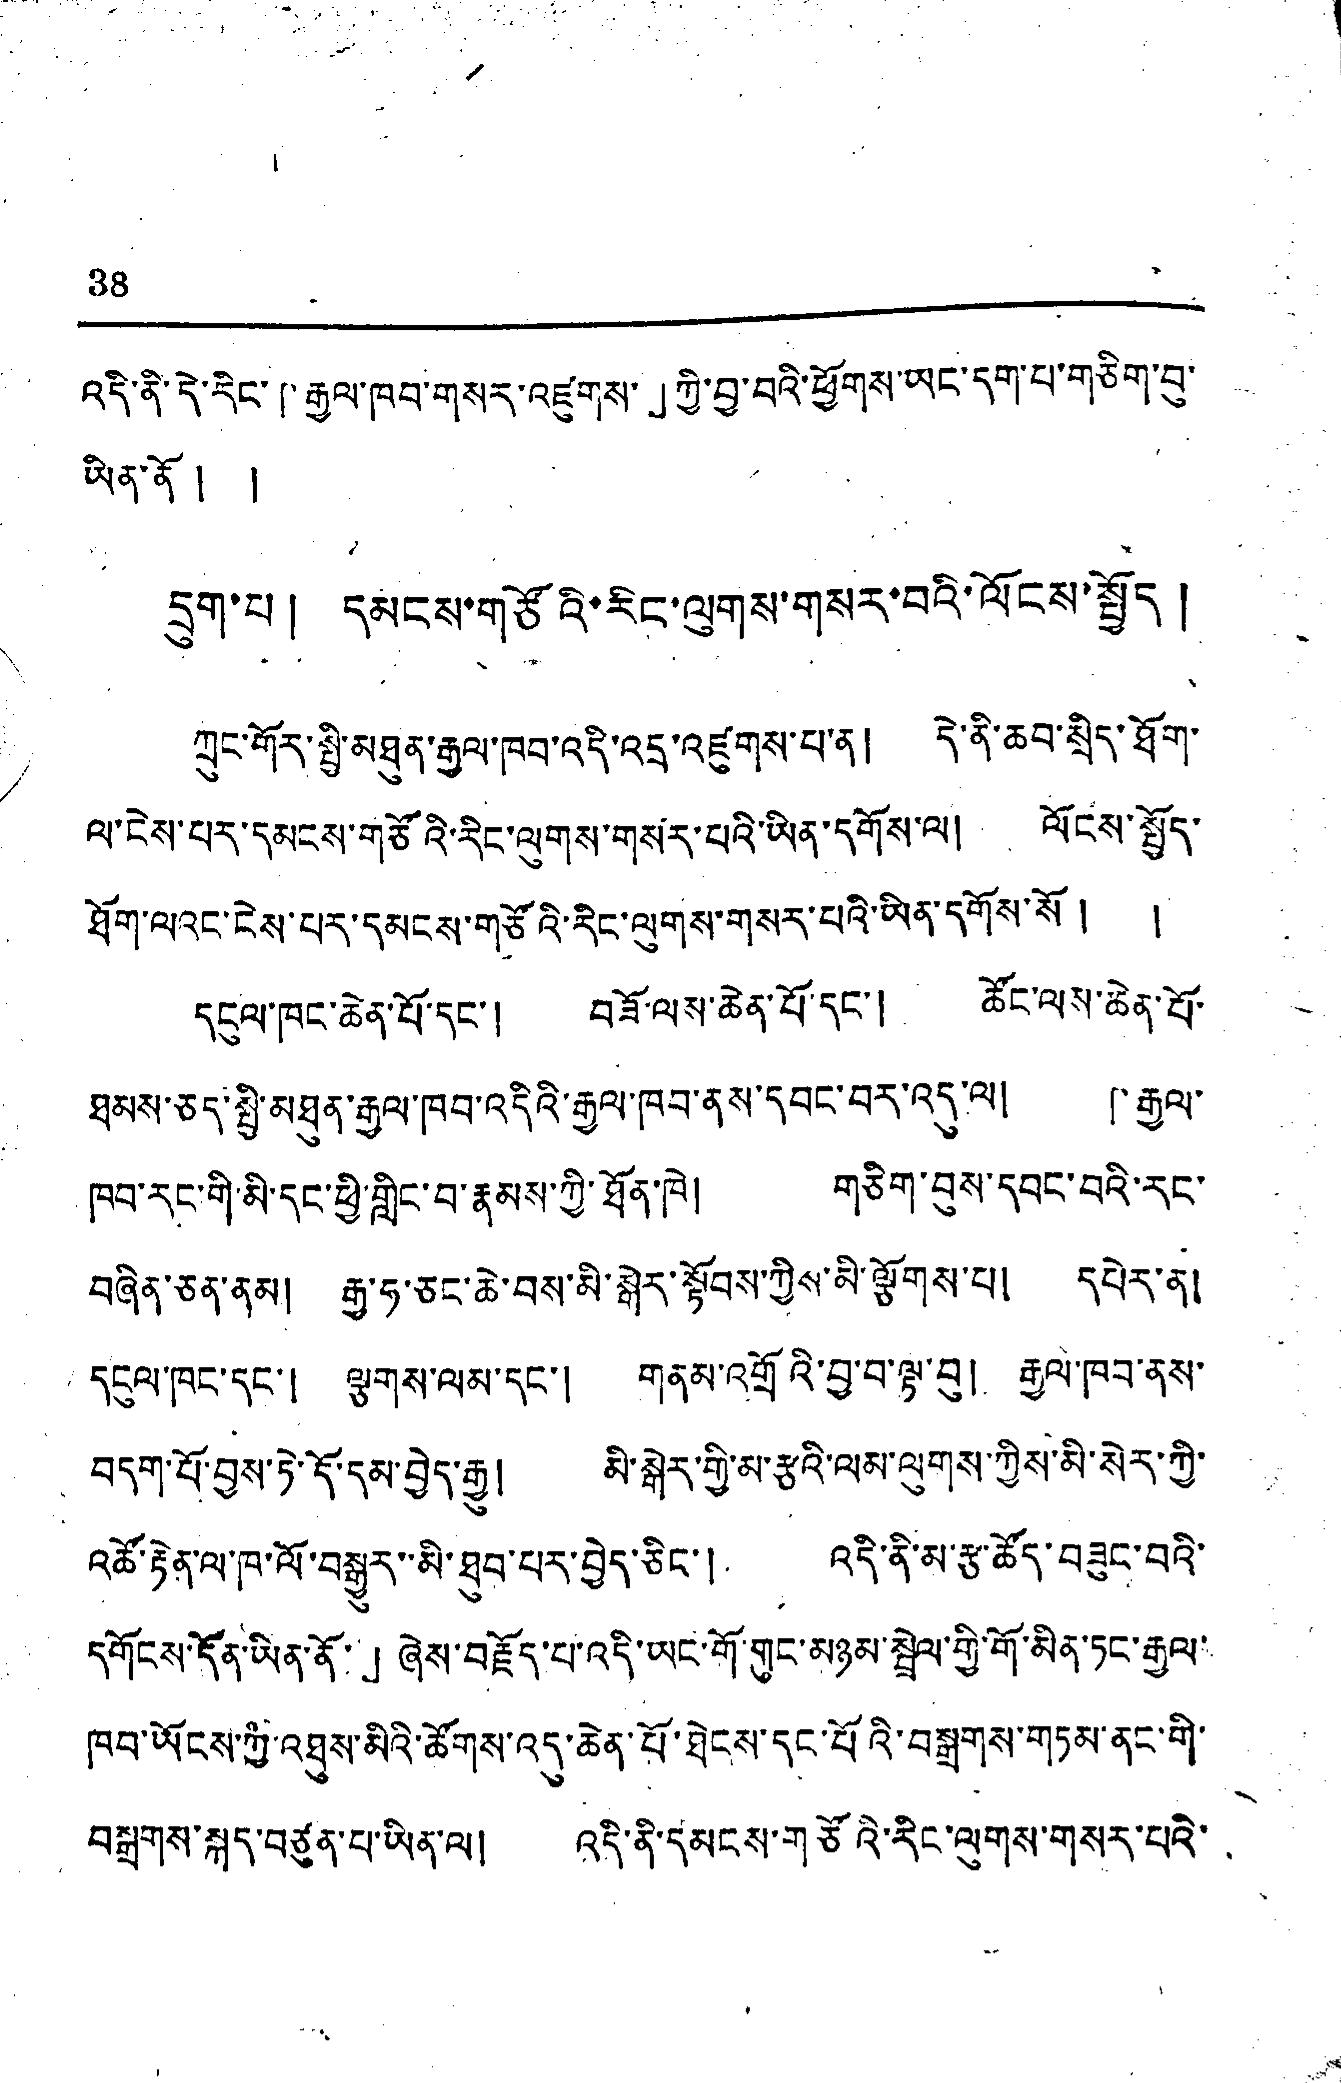38
འདི་ནི་དེ་རིང་「རྒྱལ་ཁབ་གསར་འཛུགས་」ཀྱི་བྱ་བའི་ཕྱོགས་ཡང་དག་པ་གཅིག་བུ་
ཡིན་ནོ། །
དྲུག་པ། དམངས་གཙོའི་རིང་ལུགས་གསར་བའི་ལོངས་སྤྱོད།
ཀྲུང་གོར་སྤྱི་མཐུན་རྒྱལ་ཁབ་འདི་འདྲ་འཛུགས་པ་ན། དེ་ནི་ཆབ་སྲིད་ཐོག
ལ་ངེས་པར་དམངས་གཙོའི་རིང་ལུགས་གསར་པའི་ཡིན་དགོས་ལ། ལོངས་སྤྱོད་
ཐོག་ལའང་ངེས་པར་དམངས་གཙོའི་རིང་ལུགས་གསར་པའི་ཡིན་དགོས་སོ། །
དངུལ་ཁང་ཆེན་པོ་དང་། བཟོ་ལས་ཆེན་པོ་དང་། ཚོང་ལས་ཆེན་པོ་
ཐམས་ཅད་སྤྱི་མཐུན་རྒྱལ་ཁབ་འདིའི་རྒྱལ་ཁབ་ནས་དབང་བར་འདུ་ལ། 「རྒྱལ་
ཁབ་རང་གི་མི་དང་ཕྱི་གླིང་བ་རྣམས་ཀྱི་ཐོན་ཁེ། གཅིག་བུས་དབང་བའི་རང་
བཞིན་ཅན་ནམ། རྒྱ་ཧ་ཅང་ཆེ་བས་མི་སྒེར་སྟོབས་ཀྱིས་མི་ལྕོགས་པ། དཔེར་ན།
དངུལ་ཁང་དང་། ལྕགས་ལམ་དང་། གནམ་འགྲོའི་བྱ་བ་ལྟ་བུ། རྒྱལ་ཁབ་ནས་
བདག་པོ་བྱས་ཏེ་དོ་དམ་བྱེད་རྒྱུ། མི་སྒེར་གྱི་མ་རྩའི་ལམ་ལུགས་ཀྱིས་མི་སེར་ཀྱི་
འཚོ་རྟེན་ལ་ཁ་ལོ་བསྒྱུར་མི་ཐུབ་པར་བྱེད་ཅིང་། འདི་ནི་མ་རྩ་ཚོད་བཟུང་བའི་
དགོངས་དོན་ཡིན་ནོ་」ཞེས་བརྗོད་པ་འདི་ཡང་གོ་གུང་མཉམ་སྦྲེལ་གྱི་གོ་མིན་ཏང་རྒྱལ་
ཁབ་ཡོངས་ཀྱི་འཐུས་མིའི་ཚོགས་འདུ་ཆེན་པོ་ཐེངས་དང་པོའི་བསྒྲགས་གཏམ་ནང་གི་
བསྒྲགས་སྐད་བཙུན་པ་ཡིན་ལ། འདི་ནི་དམངས་གཙོའི་རིང་ལུགས་གསར་པའི་
